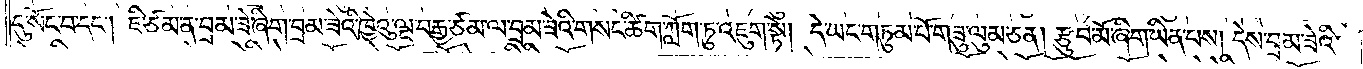དུ་སོང་བ་དང༌། ཇི་ཙམ་ན་བྲམ་ཟེ་ཞིག་བྲམ་ཟེའི་ཁྱེའུ་ལྔ་བརྒྱ་ཙམ་ལ་བྲམ་ཟེའི་གསང་ཚིག་ཀློག་ཏུ་འཇུག་སྟེ། དེ་ཡང་གཏུམ་པོ་གཟུ་ལུམ་ཅན། རྩུབ་མོ་ཞིག་ཡིན་པས། དེས་བྲམ་ཟེའི་
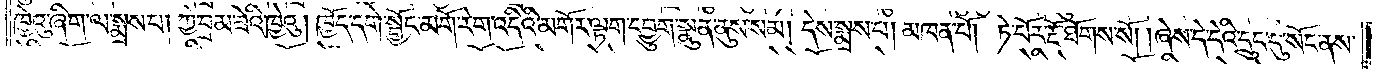ཁྱེའུ་ཞིག་ལ་སྨྲས་པ། ཀྱེ་བྲམ་ཟེའི་ཁྱེའུ། ཁྱོད་དགེ་སྦྱོང་མགོ་རེག་འདིའི་མགོར་ལྟག་དབྱུག་སྣུན་ནུས་སམ། དེས་སྨྲས་པ། མཁན་པོ། ཏེ་པོར་རྔོ་ཐོགས་སོ། །ཞེས་དེ་དེའི་དྲུང་དུ་སོང་ནས་
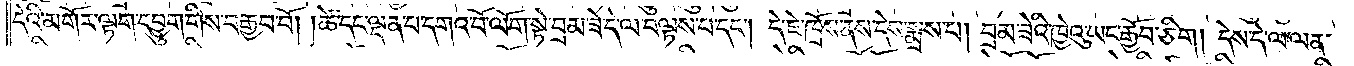དེའི་མགོར་ལྟག་དབྱུག་གིས་བརྒྱབ་བོ། །ཚེ་དང་ལྡན་པ་དགའ་བོ་ལོག་སྟེ་བྲམ་ཟེ་དེ་ལ་བལྟས་པ་དང༌། དེ་ཇེ་ཁྲོས་ནས་དེས་སྨྲས་པ། བྲམ་ཟེའི་ཁྱེའུ་ཡང་རྒྱོབ་ཅིག། དེས་དེ་ལ་ལན་
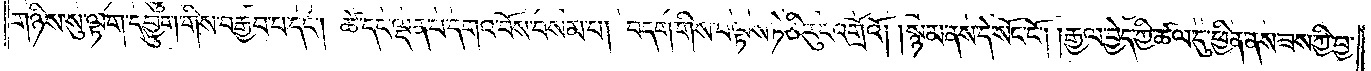གཉིས་སུ་ལྟག་དབྱུག་གིས་བརྒྱབ་པ་དང༌། ཚེ་དང་ལྡན་པ་དགའ་བོས་བསམ་པ། བདག་གིས་བལྟས་ཏེ་ཅི་རུང་འགྲོའོ། །སྙམ་ནས་དེ་སོང་ངོ༌། །རྒྱལ་བྱེད་ཀྱི་ཚལ་དུ་ཕྱིན་ནས་ཟས་ཀྱི་བྱ་
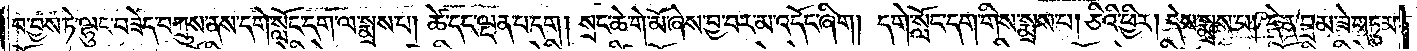བ་བྱས་ཏེ་ལྷུང་བཟེད་བཀྲུས་ནས་དགེ་སློང་དག་ལ་སྨྲས་པ། ཚེ་དང་ལྡན་པ་དག། སྲང་ཆེ་གེ་མོ་ཞེས་བྱ་བར་མ་འདོང་ཞིག། དགེ་སློང་དག་གིས་སྨྲས་པ། ཅིའི་ཕྱིར། དེས་སྨྲས་པ། དེ་ན་བྲམ་ཟེ་གཏུམ་
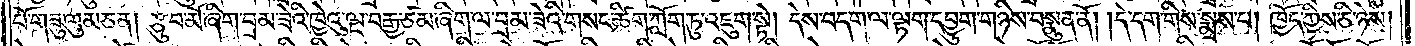པོ་གཟུ་ལུམ་ཅན། རྩུབ་མོ་ཞིག་བྲམ་ཟེའི་ཁྱེའུ་ལྔ་བརྒྱ་ཙམ་ཞིག་ལ་བྲམ་ཟེའི་གསང་ཚིག་ཀློག་ཏུ་འཇུག་སྟེ། དེས་བདག་ལ་ལྟག་དབྱུག་གཉིས་བསྣུན་ནོ། །དེ་དག་གིས་སྨྲས་པ། ཁྱོད་ཀྱིས་ཅི་ཉེས།
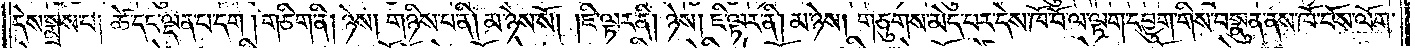དེས་སྨྲས་པ། ཚེ་དང་ལྡན་པ་དག །གཅིག་ནི། ཉེས། གཉིས་པ་ནི། མ་ཉེས་སོ། །ཇི་ལྟར་ནི། ཉེས། ཇི་ལྟར་ནི། མ་ཉེས། གཅུགས་མེད་པར་དེས་ཁོ་བོ་ལ་ལྟག་དབྱུག་གིས་བསྣུན་ནས་ཁོ་བོས་ལོག་
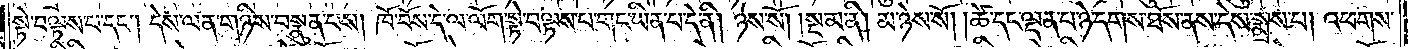སྟེ་བལྟས་པ་དང༌། དེས་ལན་གཉིས་བསྣུན་པས། ཁོ་བོས་དེ་ལ་ལོག་སྟེ་བལྟས་པ་གང་ཡིན་པ་དེ་ནི། ཉེས་སོ། །སྔ་མ་ནི། མ་ཉེས་སོ། །ཚེ་དང་ལྡན་པ་ཉེ་དས་ཐོས་ནས་དེས་སྨྲས་པ། འཕགས་
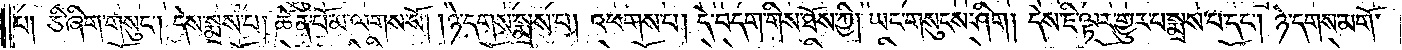པ། ཅི་ཞིག་གསུང༌། དེས་སྨྲས་པ། ཆེན་པོ་མ་ལགས་སོ། །ཉེ་དགས་སྨྲས་པ། འཕགས་པ། དེ་བདག་གིས་ཐོས་ཀྱི། ཡང་གསུངས་ཤིག། དེས་ཇི་ལྟར་གྱུར་པ་སྨྲས་པ་དང༌། ཉེ་དགས་མགོ་
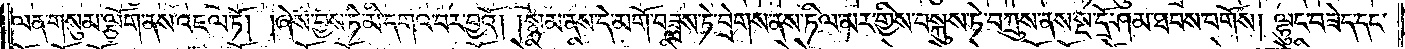ལན་གསུམ་ལྕོག་ནས་འཇལ་ཏོ། །ཞེས་བྱས་ཏེ་མི་དགའ་བར་བྱའོ། །སྙམ་ནས་དེ་མགོ་བཟླས་ཏེ་བྲེགས་ནས་ཏིལ་མར་གྱིས་བསྐུས་ཏེ་བཀྲུས་ནས་སྔ་དྲོ་ཤམ་ཐབས་བགོས། ལྷུང་བཟེད་དང་
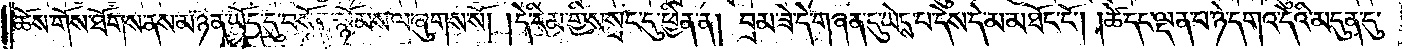ཆོས་གོས་ཐོགས་ནས་མཉན་ཡོད་དུ་བསོད་སྙོམས་ལ་ཞུགས་སོ། །དེ་རིམ་གྱིས་སྲང་དུ་ཕྱིན་ན། བྲམ་ཟེ་དེ་གཞན་དུ་ཡེངས་པ་དེས་དེ་མ་མཐོང་ངོ༌། །ཚེ་དང་ལྡན་པ་ཉེ་དགའ་དེའི་མདུན་དུ་
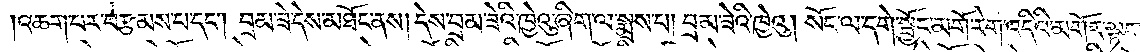འཆག་པར་བརྩམས་པ་དང༌། བྲམ་ཟེ་དེས་མཐོང་ནས། དེས་བྲམ་ཟེའི་ཁྱེའུ་ཞིག་ལ་སྨྲས་པ། བྲམ་ཟེའི་ཁྱེའུ། སོང་ལ་དགེ་སྦྱོང་མགོ་རེག་འདིའི་མགོར་ལྟག་
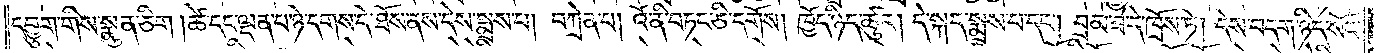དབྱུག་གིས་སྣུན་ཅིག །ཚེ་དང་ལྡན་པ་ཉེ་དགས་དེ་ཐོས་ནས་དེས་སྨྲས་པ། བཀྲེན་པ། འོ་ནི་བཏང་ཅི་དགོས། ཁྱོད་ཉིད་ཚུར། དེ་སྐད་སྨྲས་པ་དང༌། བྲམ་ཟེ་དེ་ཁྲོས་ཏེ། དེས་བདག་ཉིད་སོང་
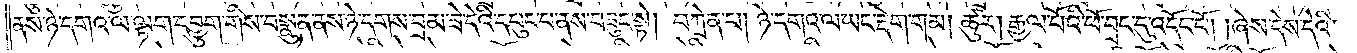ནས་ཉེ་དགའ་ལ་ལྟག་དབྱུག་གིས་བསྣུན་ནས་ཉེ་དགས་བྲམ་ཟེ་དེའི་དཔུང་པ་ནས་བཟུང་སྟེ། བཀྲེན་པ། ཉེ་དགའ་ལ་ཡང་རྡེག་གམ། ཚུར། རྒྱལ་པོའི་ཕོ་བྲང་དུ་འདོང་ངོ༌། །ཞེས་དེས་དེའི་
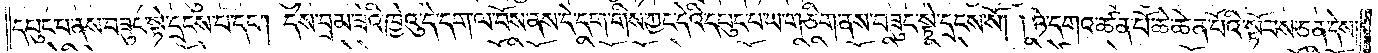དཔུང་བ་ནས་བཟུང་སྟེ་དྲངས་པ་དང༌། དེས་བྲམ་ཟེའི་ཁྱེའུ་དེ་དག་ལ་བོས་ནས་དེ་དག་གིས་ཀྱང་དེའི་དཔུང་པ་ཡ་གཅིག་ནས་བཟུང་སྟེ་དྲངས་སོ། །ཉེ་དགའ་ཚན་པོ་ཆེ་ཆེན་པོའི་སྟོབས་ཅན་དེས།
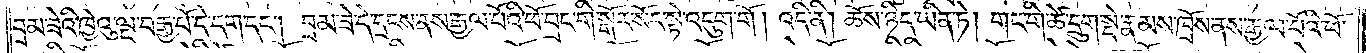བྲམ་ཟེའི་ཁྱེའུ་ལྔ་བརྒྱ་པོ་དེ་དག་དང༌། བྲམ་ཟེ་དེ་དྲངས་ནས་རྒྱལ་པོའི་ཕོ་བྲང་གི་སྒོར་སོང་སྟེ་འདུག་གོ། འདི་ནི། ཆོས་ཉིད་ཡིན་ཏེ། གང་གི་ཚེ་དྲུག་སྡེ་རྣམས་ཁྲོས་ནས་རྒྱལ་པོའི་ཕོ་
